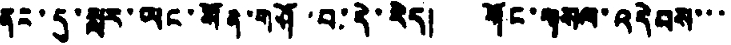ནང་དུ་སླར་ཡང་སོན་གཤོ་བ་དེ་རེད། གོང་གསལ་འདེབས་་་
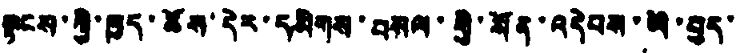སྟངས་ཀྱི་ཁྱད་ཚོས་དེར་དམིགས་བསལ་གྱི་སོན་འདེབས་ཡོ་བྱད་
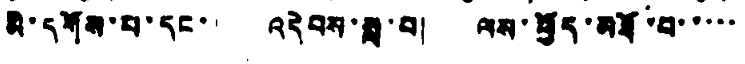མི་དགོས་པ་དང་། འདེབས་སླ་བ། ལས་ཕྱོད་མཐོ་བ་་་་་
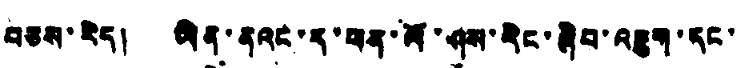བཅས་རེད། ཡིན་ནའང་ད་ཕན་ལོ་ཤས་རིང་ཞིབ་འཇུག་དང་
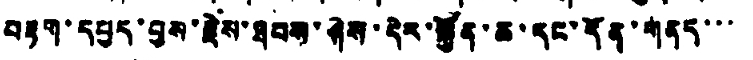བརྟག་དཔྱད་བྱས་རྗེས་ཐབས་ཤེས་དེར་སྐྱོན་ཆ་དང་དོན་གནད་་་
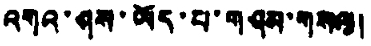འགའ་ཤས་ཡོད་པ་གཤས་གསལ།
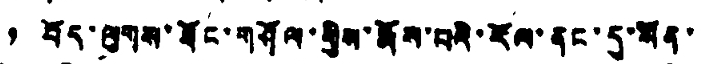༡ བོད་ལུགས་ཐོང་གཤོལ་གྱིས་རྨོས་པའི་རོལ་ནང་དུ་སོན་
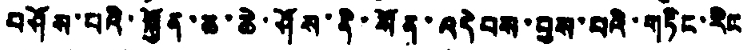བཤོས་པའི་སྐྱོན་ཆ་ཆེ་ཤོས་ནི་སོན་འདེབས་བྱས་པའི་གཏིང་རིང
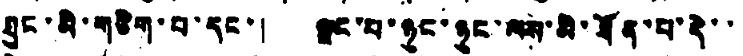ཐུང་མི་གཅིག་པ་དང་། ལྗང་པ་ཉུང་ཉུང་ལས་མི་ཐོན་པ་དེ་་
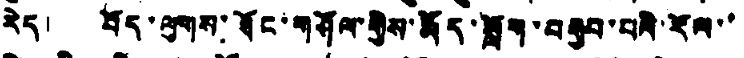རེད། བོད་ལུགས་ཐོང་གཤོལ་གྱིས་རྨོད་སློག་བརྒྱབ་པའི་རོལ་་
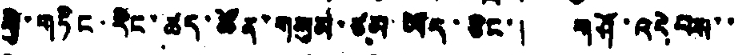གྱི་གཏིང་རིང་ཚད་ཚོན་གསུམ་ཙམ་ཡོད་ཅིང་། གཤོ་འདེབས་་
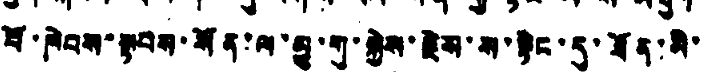པོ་ཁེབས་སྟབས་སོན་ལ་མྱུ་གུ་སྐྱེས་རྗེས་ས་སྟེང་དུ་ཐོན་མི་
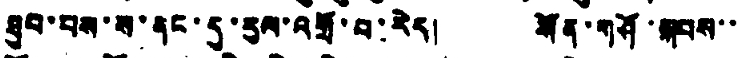ཐུབ་པས་ས་ནང་དུ་རུལ་འགྲོ་བ་རེད། སོན་གཤོ་སྐབས་་
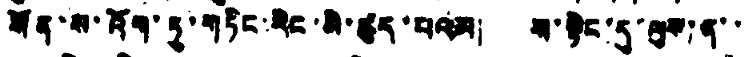སོན་ས་འོག་ཏུ་གཏིང་རིང་མི་ཚུད་པའམ། ས་སྟེང་དུ་ལུག་ན་་
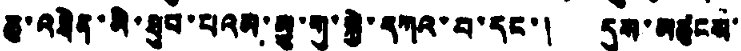ཆུ་འཐེན་མི་ཐུབ་པའམ་མྱུ་གུ་སྐྱེ་དཀའ་བ་དང་། དུས་མཚུངས་
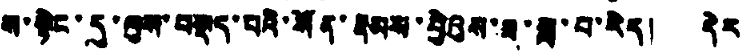ས་སྟེང་དུ་ལུས་བསྡད་པའི་སོན་རྣམས་བྱེའུས་ཟ་ཟླ་བ་རེད། དེར
